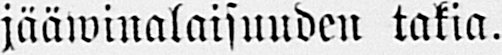jääwinalaisuuden takia.
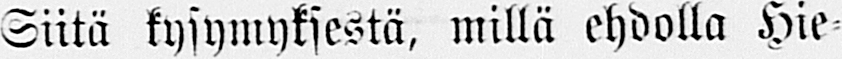Siitä kysymyksestä, millä ehdolla Hie-
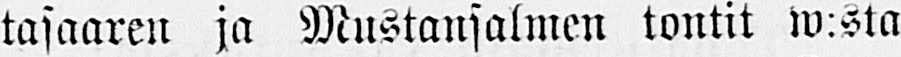tasaaren ja Mustansalmen tontit w:sta
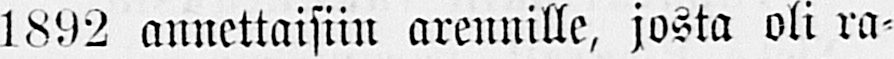1892 annettaisiin arennille, josta oli ra-
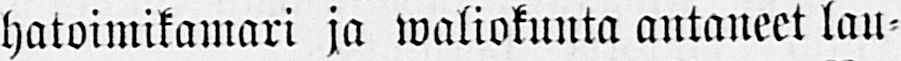hatoimikamari ja waliokunta antaneet lau-
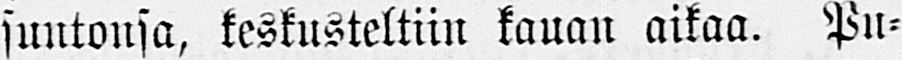suntonsa, keskusteltiin kauan aikaa. Pu-
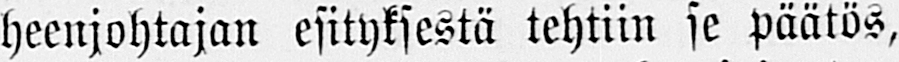heenjohtajan esityksestä tehtiin se päätös,
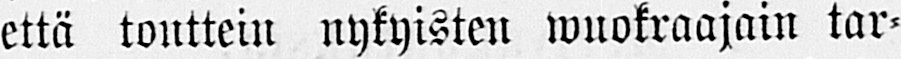että tonttein nykyisten wuokraajain tar-
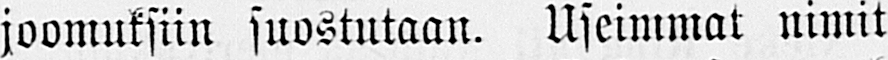joomuksiin suostutaan. Useimmat nimit
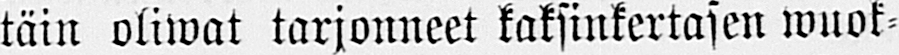täin oliwat tarjonneet kaksinkertasen wuok-
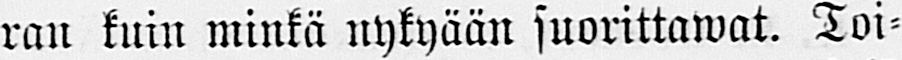ran kuin minkä nykyään suorittawat. Toi-
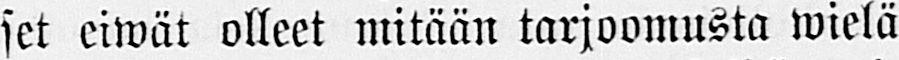set eiwät olleet mitään tarjoomusta wielä
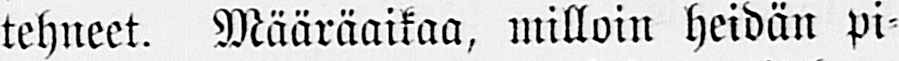tehneet. Määräaikaa, milloin heidän pi-
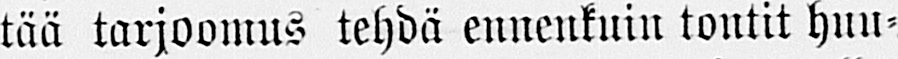tää tarjoomus tehdä ennenkuin tontit huu-
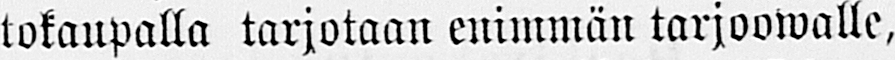tokaupalla tarjotaan enimmän tarjoowalle,
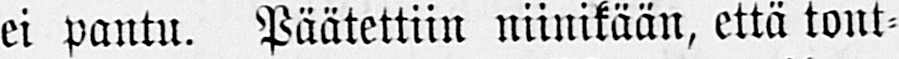ei pantu. Päätettiin niinikään, että tont-
